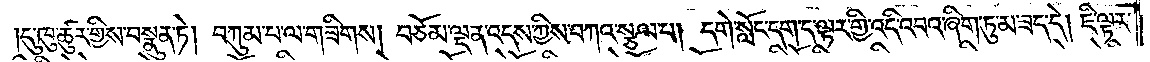།དུ་ཁུ་ཚུར་གྱིས་བསྣུན་ཏེ། བཀུམ་པ་ལ་གཟིགས། བཅོམ་ལྡན་འདས་ཀྱིས་བཀའ་སྩལ་པ། དགེ་སློང་དག་ད་ལྟར་གྱི་འདི་འབའ་ཞིག་ཏུ་མ་ཟད་དེ། ཇི་ལྟར་
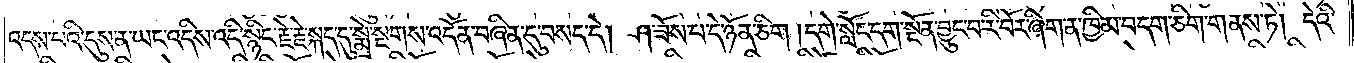འདས་པའི་དུས་ན་ཡང་འདིས་འདི་སྙིང་རྗེ་རྗེ་སྐད་དུ་སྨྲེ་སྔགས་འདོན་བཞིན་དུ་བསད་དེ། ཤ་ཟོས་པ་དེ་ཉོན་ཅིག །དགེ་སློང་དག་སྔོན་བྱུང་བ་རི་བོར་ཞིག་ན་ཁྱིམ་བདག་ཅིག་གནས་ཏེ། དེའི་
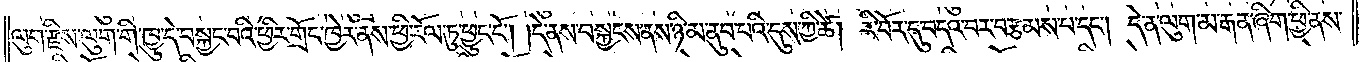ལུག་རྫིས་ལུག་གི་ཁྱུ་དེ་བསྐྱང་བའི་ཕྱིར་གྲོང་ཁྱེར་ནས་ཕྱི་རོལ་ཏུ་ཕྱུང་ངོ༌། །དེ་ནས་བསྐྱངས་ནས་ཉི་མ་ནུབ་པའི་དུས་ཀྱི་ཚེ། རི་བོར་དུ་བདའ་བར་བརྩམས་པ་དང༌། དེ་ན་ལུག་མ་རྒན་ཞིག་ཕྱི་ནས་
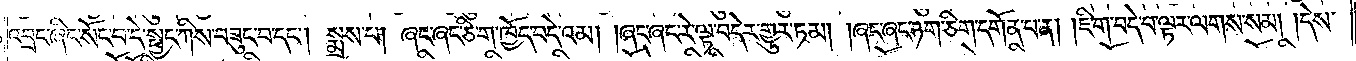འབྲང་ཞིང་སོང་བ་དེ་སྤྱང་ཀིས་བཟུང་བ་དང༌། སྨྲས་པ། ཞང་ཞང་ཅིག་ཁྱོད་བདེའམ། །ཞང་ཞང་རེ་ལྟ་བདེར་གྱུར་ཏམ། །ཞང་ཞང་ཉག་ཅིག་དགོན་པ་ན། །ཇི་ག་བདེ་བ་ལྟར་ལགས་སམ། །དེས་
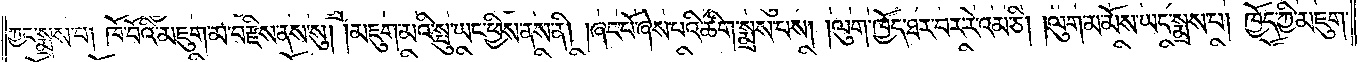ཀྱང་སྨྲས་པ། ཁོ་བོའི་མཇུག་མ་བརྫིས་ནས་སུ། །མཇུག་མའི་སྤུ་ཡང་ཕྱིས་ནས་ནི། །ཞང་པོ་ཞེས་པའི་ཚིག་སྨྲས་པས། །ལུག་ཁྱོད་ཐར་བར་རེའམ་ཅི། །ལུག་མ་མོས་ཡང་སྨྲས་པ། ཁྱོད་ཀྱི་མཇུག་
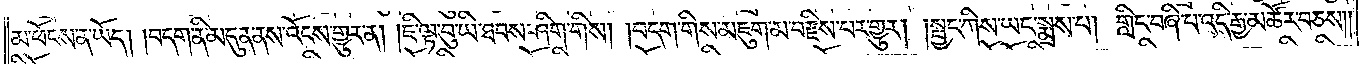མ་ཕོངས་ན་ཡོད། །བདག་ནི་མདུན་ནས་འོངས་གྱུར་ན། །ཇི་ལྟ་བུ་ཡི་ཐབས་ཤིག་གིས། །བདག་གིས་མཇུག་མ་བརྫིས་པར་གྱུར། །སྤྱང་ཀིས་ཡང་སྨྲས་པ། གླིང་བཞི་པ་འདི་རྒྱ་མཚོར་བཅས༎
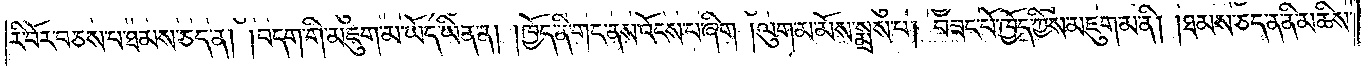རི་བོར་བཅས་པ་ཐམས་ཅད་ན། །བདག་གི་མཇུག་མ་ཡོད་ཡིན་ན། །ཁྱོད་ནི་གང་ནས་འོངས་པ་ཞིག །ལུག་མ་མོས་སྨྲས་པ། བཟང་པོ་ཁྱོད་ཀྱིས་མཇུག་མ་ནི། །ཐམས་ཅད་ན་ནི་མཆིས་
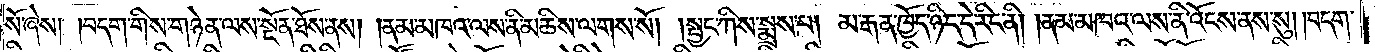སོ་ཞེས། །བདག་གིས་གཉེན་ལས་སྔོན་ཐོས་ནས། །ནམ་མཁའ་ལས་ནི་མཆིས་ལགས་སོ། །སྤྱང་ཀིས་སྨྲས་པ། མ་རྒན་ཁྱོད་ཉིད་དེ་རིང་ནི། །ནམ་མཁའ་ལས་ནི་འོངས་ནས་སུ། །བདག་
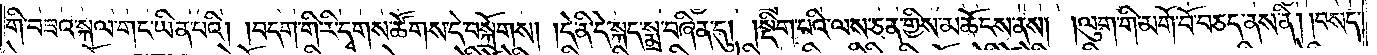གི་བཟའ་སྐལ་གང་ཡིན་པའི། །བདག་གི་རི་དྭགས་ཚོགས་དེ་བསྐྲོགས། །དེ་ནི་དེ་སྐད་སྨྲ་བཞིན་དུ། །སྡིག་པའི་ལས་ཅན་གྱིས་མཆོངས་ནས། །ལུག་གི་མགོ་བོ་བཅད་ནས་ནི། །བསད་
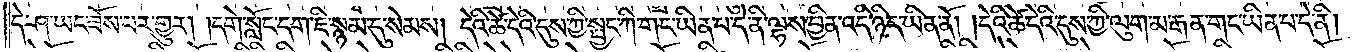དེ་ཤ་ཡང་ཟོས་པར་གྱུར། །དགེ་སློང་དག་ཇི་སྙམ་དུ་སེམས། དེའི་ཚེ་དེའི་དུས་ཀྱི་སྤྱང་ཀི་གང་ཡིན་པ་དེ་ནི་ལྷས་བྱིན་འདི་ཉིད་ཡིན་ནོ། །དེའི་ཚེ་དེའི་དུས་ཀྱི་ལུག་མ་རྒན་གང་ཡིན་པ་དེ་ནི།
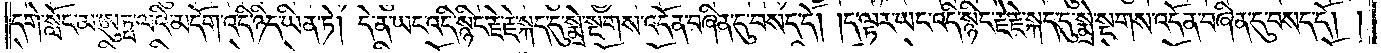དགེ་སློང་མ་ཨུཏྤ་ལའི་མདོག་འདི་ཉིད་ཡིན་ཏེ། དེ་ན་ཡང་འདི་སྙིང་རྗེ་རྗེ་སྐད་དུ་སྨྲེ་སྔགས་འདོན་བཞིན་དུ་བསད་དོ། །ད་ལྟར་ཡང་འདི་སྙིང་རྗེ་རྗེ་སྐད་དུ་སྨྲེ་སྔགས་འདོན་བཞིན་དུ་བསད་དོ། །
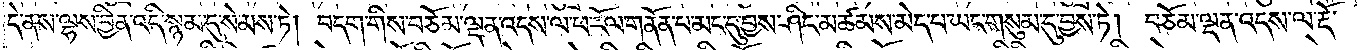དེ་ནས་ལྷས་བྱིན་འདི་སྙམ་དུ་སེམས་ཏེ། བདག་གིས་བཅོམ་ལྡན་འདས་ལ་ཕ་རོལ་གནོན་པ་མང་དུ་བྱས་ཤིང་མཚམས་མེད་པ་ཡང་གསུམ་དུ་བྱས་ཏེ། བཅོམ་ལྡན་འདས་ལ་རྡོ་
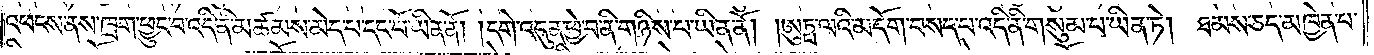འཕངས་ནས་ཁྲག་ཕྱུང་བ་འདི་ནི་མཚམས་མེད་པ་དང་པོ་ཡིན་ནོ། །དགེ་འདུན་ཕྱེ་བ་ནི་གཉིས་པ་ཡིན་ནོ། །ཨུཏྤ་ལའི་མདོག་བསད་པ་འདི་ནི་གསུམ་པ་ཡིན་ཏེ། ཐམས་ཅད་མཁྱེན་པ་
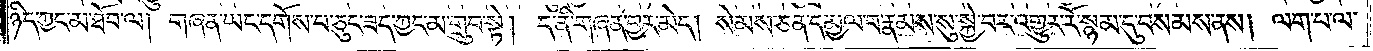ཉིད་ཀྱང་མ་ཐོབ་ལ། གཞན་ཡང་དགོས་པ་ཅུང་ཟད་ཀྱང་མ་གྲུབ་སྟེ། ད་ནི་གཞན་བྱར་མེད། སེམས་ཅན་དམྱལ་བ་རྣམས་སུ་སྐྱེ་བར་འགྱུར་རོ་སྙམ་དུ་བསམས་ནས། ལག་པ་ལ་
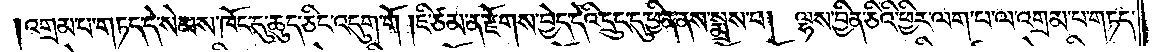འགྲམ་པ་གཏད་དེ་སེམས་ཁོང་དུ་ཆུད་ཅིང་འདུག་གོ །ཇི་ཙམ་ན་རྫོགས་བྱེད་དེའི་དྲུང་དུ་ཕྱིན་ནས་སྨྲས་པ། ལྷས་བྱིན་ཅིའི་ཕྱིར་ལག་པ་ལ་འགྲམ་པ་གཏད་
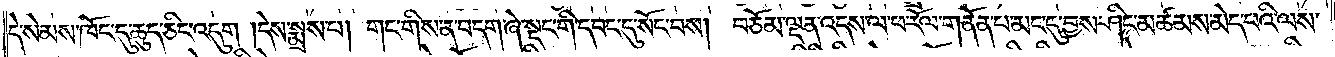དེ་སེམས་ཁོང་དུ་ཆུད་ཅིང་འདུག །དེས་སྨྲས་པ། གང་གིས་ན་བདག་ཞེ་སྡང་གི་དབང་དུ་སོང་བས། བཅོམ་ལྡན་འདས་ལ་ཕ་རོལ་གནོན་པ་མང་དུ་བྱས་ཤིང་མཚམས་མེད་པའི་ལས་
